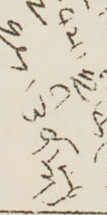བྱས་ཉིན་སྐོར།
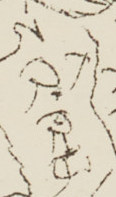དའི་ཝན་
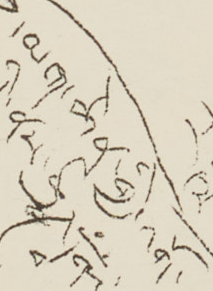དམག་ཆེན་གྱི་འགོ་
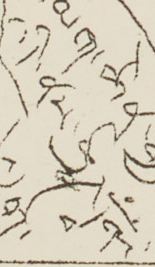འདི་ནས་ཚུཌ་དགོས་
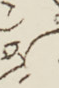འདུག་
